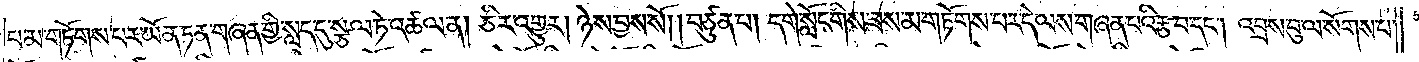པ་མ་གཏོགས་པར་ཡོན་ཏན་གཞན་གྱི་སླད་དུ་སྩལ་ཏེ་འཚལ་ན། ཅིར་འགྱུར། ཉེས་བྱས་སོ། །བཙུན་པ། དགེ་སློང་གིས་ཟས་མ་གཏོགས་པར་དེ་ལས་གཞན་པའི་རྩ་བ་དང༌། འབྲས་བུ་ལ་སོགས་པ་
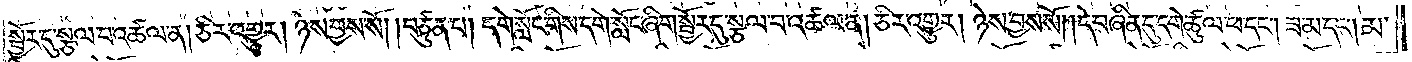སྦྱོར་དུ་སྩལ་བ་འཚལ་ན། ཅིར་འགྱུར། ཉེས་བྱས་སོ། །བཙུན་པ། དགེ་སློང་གིས་དགེ་སློང་ཞིག་སྦྱོར་དུ་སྩལ་བ་འཚལ་ན། ཅིར་འགྱུར། ཉེས་བྱས་སོ། །དེ་བཞིན་དུ་དགེ་ཚུལ་ཕ་དང༌། ཟ་མ་དང༌། མ་
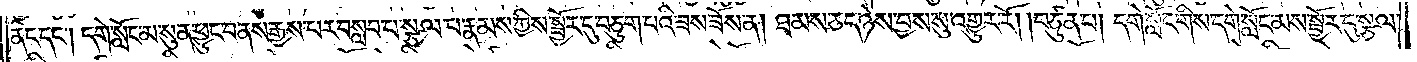ནིང་དང༌། དགེ་སློང་མ་སུན་ཕྱུང་བ་ནས་རྒྱས་པར་བསླབ་པ་སྩལ་པ་རྣམས་ཀྱིས་སྦྱོར་དུ་བཅུག་པའི་ཟས་ཟོས་ན། ཐམས་ཅད་ཉེས་བྱས་སུ་འགྱུར་རོ། །བཙུན་པ། དགེ་སློང་གིས་དགེ་སློང་མས་སྦྱོར་དུ་སྩལ་
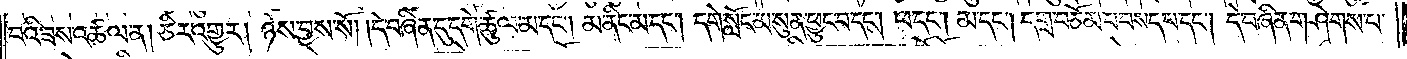བའི་ཟས་འཚལ་ན། ཅིར་འགྱུར། ཉེས་བྱས་སོ། །དེ་བཞིན་དུ་དགེ་ཚུལ་མ་དང༌། མ་ནིང་མ་དང༌། དགེ་སློང་མ་སུན་ཕྱུང་བ་དང༌། ཕ་དང༌། མ་དང༌། དགྲ་བཅོམ་པ་བསད་པ་དང༌། དེ་བཞིན་གཤེགས་པ་
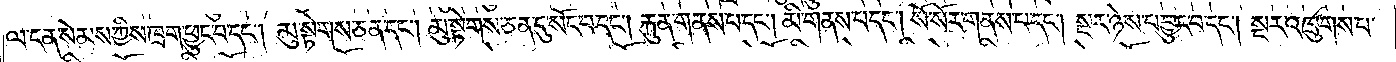ལ་ངན་སེམས་ཀྱིས་ཁྲག་ཕྱུང་བ་དང༌། མུ་སྟེགས་ཅན་དང༌། མུ་སྟེགས་ཅན་དུ་སོང་བ་དང༌། རྐུན་གནས་པ་དང༌། མི་གནས་པ་དང༌། སོ་སོར་གནས་པ་དང༌། སྔར་ཉེས་པ་བྱུང་བ་དང༌། སྔར་འཁྲུགས་པ་
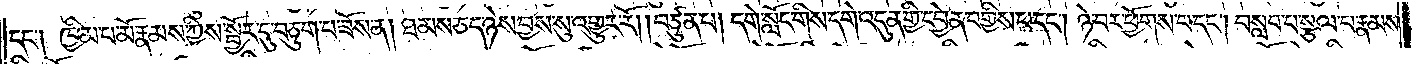དང༌། ཁྱིམ་པ་མོ་རྣམས་ཀྱིས་སྦྱོར་དུ་བཅུག་པ་ཟོས་ན། ཐམས་ཅད་ཉེས་བྱས་སུ་འགྱུར་རོ། །བཙུན་པ། དགེ་སློང་གིས་དགེ་འདུན་གྱི་དབྱེན་བགྱིས་པ་དང༌། ཉེ་བར་ཕྱོགས་པ་དང༌། བསླབ་པ་སྩལ་པ་རྣམས་
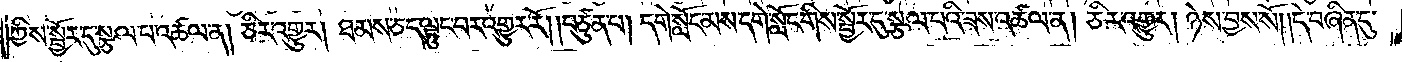ཀྱིས་སྦྱོར་དུ་སྩལ་པ་འཚལ་ན། ཅིར་འགྱུར། ཐམས་ཅད་ལྟུང་བར་འགྱུར་རོ། །བཙུན་པ། དགེ་སློང་མས་དགེ་སློང་གིས་སྦྱོར་དུ་སྩལ་པའི་ཟས་འཚལ་ན། ཅིར་འགྱུར། ཉེས་བྱས་སོ། །དེ་བཞིན་དུ་
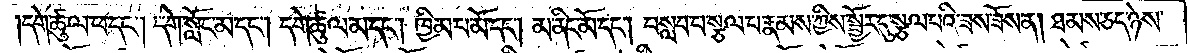དགེ་ཚུལ་ཕ་དང༌། དགེ་སློང་མ་དང༌། དགེ་ཚུལ་མ་དང༌། ཁྱིམ་པ་མོ་དང༌། མ་ནིང་མོ་དང༌། བསླབ་པ་སྩལ་པ་རྣམས་ཀྱིས་སྦྱོར་དུ་སྩལ་པའི་ཟས་ཟོས་ན། ཐམས་ཅད་ཉེས་
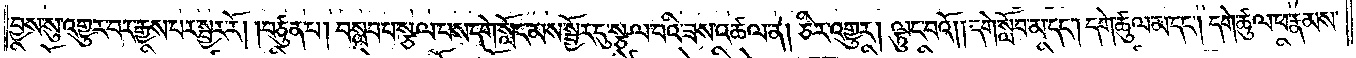བྱས་སུ་འགྱུར་བར་རྒྱས་པར་སྦྱར་རོ། །བཙུན་པ། བསླབ་པ་སྩལ་པས་དགེ་སློང་མས་སྦྱོར་དུ་སྩལ་པའི་ཟས་འཚལ་ན། ཅིར་འགྱུར། ལྟུང་བའོ། །དགེ་སློབ་མ་དང༌། དགེ་ཚུལ་མ་དང༌། དགེ་ཚུལ་ཕ་རྣམས་
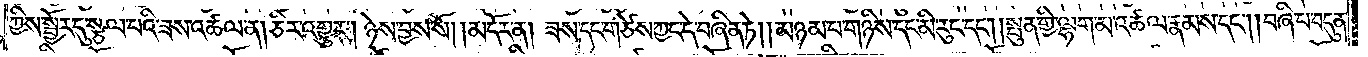ཀྱིས་སྦྱོར་དུ་སྩལ་པའི་ཟས་འཚལ་ན། ཅིར་འགྱུར། ཉེས་བྱས་སོ།    །མདོར་ན། ཟས་དང་གཙེས་ཀྱང་དེ་བཞིན་ཏེ། །མཉམ་པ་གཉིས་དང་མི་རུང་དང༌། །སྤུན་གྱི་ལྷག་མ་འཚལ་རྣམས་དང༌། །བཞི་པ་བདུན་
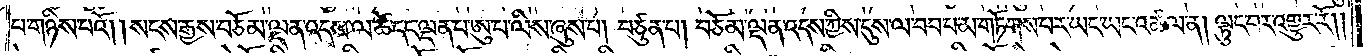པ་གཉིས་པའོ། །སངས་རྒྱས་བཅོམ་ལྡན་འདས་ལ་ཚེ་དང་ལྡན་པ་ཨུ་པ་ལིས་ཞུས་པ། བཙུན་པ། བཅོམ་ལྡན་འདས་ཀྱིས་དུས་ལ་བབ་པ་མ་གཏོགས་པར་ཡང་ཡང་འཚལ་ན། ལྟུང་བར་འགྱུར་རོ༎
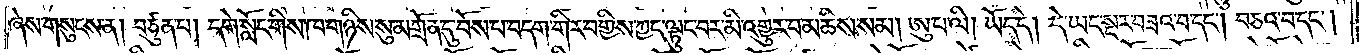ཞེས་གསུངས་ན། བཙུན་པ། དགེ་སློང་གིས་ཁ་གཉིས་སུ་མགྲོན་དུ་བོས་པ་བདག་གིར་བགྱིས་ཀྱང་ལྟུང་བར་མི་འགྱུར་བ་མཆིས་སམ། ཨུ་པ་ལི། ཡོད་དེ། དེ་ཡང་སྔར་བཟའ་བ་དང༌། བཅའ་བ་དང༌།
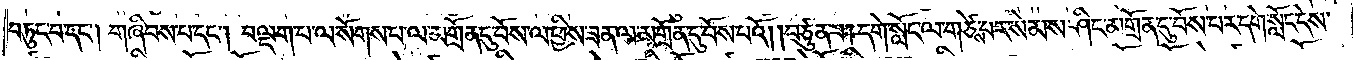བཏུང་བ་དང༌། གཞིབས་པ་དང༌། བལྡག་པ་ལ་སོགས་པ་ལ་མགྲོན་དུ་བོས་ལ་ཕྱིས་ཟན་ལ་མགྲོན་དུ་བོས་པའོ། །བཙུན་པ། དགེ་སློང་ལ་གཙེས་པར་སེམས་ཤིང་མགྲོན་དུ་བོས་པར་དགེ་སློང་དེས་
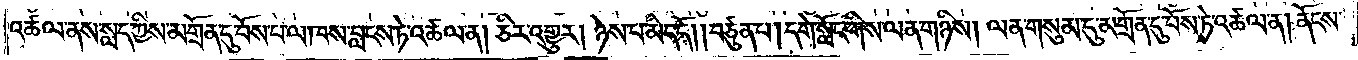འཚལ་ནས་སླད་ཀྱིས་མགྲོན་དུ་བོས་པ་ལ་ཁས་བླངས་ཏེ་འཚལ་ན། ཅིར་འགྱུར། ཉེས་པ་མེད་དོ། །བཙུན་པ། དགེ་སློང་གིས་ལན་གཉིས། ལན་གསུམ་དུ་མགྲོན་དུ་བོས་ཏེ་འཚལ་ན། ནོངས་
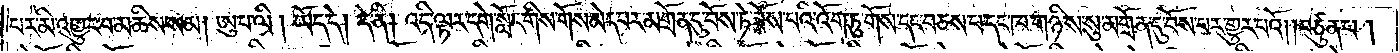པར་མི་འགྱུར་བ་མཆིས་སམ། ཨུ་པ་ལི། ཡོད་དེ། དེ་ནི། འདི་ལྟར་དགེ་སློང་གིས་གོས་མེད་པར་མགྲོན་དུ་བོས་ཏེ་ཟོས་པའི་འོག་ཏུ་གོས་དང་བཅས་པ་དང་ཁ་གཉིས་སུ་མགྲོན་དུ་བོས་པར་གྱུར་པའོ། །བཙུན་པ།
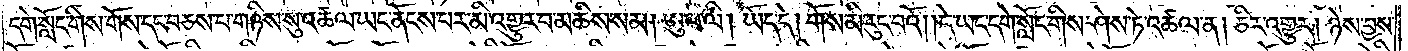དགེ་སློང་གིས་གོས་དང་བཅས་པ་གཉིས་སུ་འཚལ་ཡང་ནོངས་པར་མི་འགྱུར་བ་མཆིས་སམ། ཨུ་པ་ལི། ཡོད་དེ། གོས་མི་རུང་བའོ། །དེ་ཡང་དགེ་སློང་གིས་ཤེས་ཏེ་འཚལ་ན། ཅིར་འགྱུར། ཉེས་བྱས་
